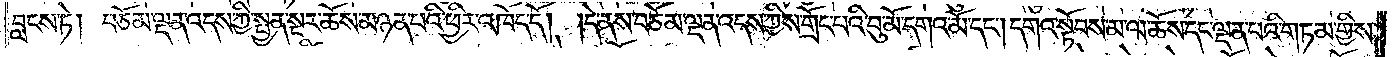བླངས་ཏེ། བཅོམ་ལྡན་འདས་ཀྱི་སྤྱན་སྔར་ཆོས་མཉན་པའི་ཕྱིར་འཁོད་དོ། །དེ་ནས་བཅོམ་ལྡན་འདས་ཀྱིས་གྲོང་པའི་བུ་མོ་དགའ་མོ་དང༌། དགའ་སྟོབས་མ་ལ་ཆོས་དང་ལྡན་པའི་གཏམ་གྱིས་
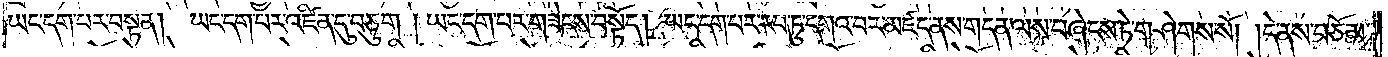ཡང་དག་པར་བསྟན། ཡང་དག་པར་འཛིན་དུ་བཅུག །ཡང་དག་པར་གཟེངས་བསྟོད། ཡང་དག་པར་རབ་ཏུ་དགའ་བར་མཛད་ནས་གདན་ལས་བཞེངས་ཏེ་གཤེགས་སོ། །དེ་ནས་བཅོམ་
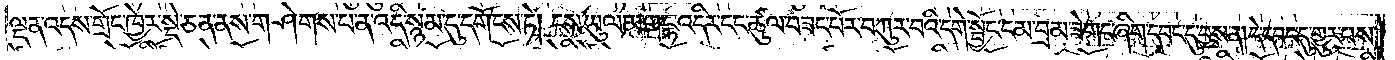ལྡན་འདས་གྲོང་ཁྱེར་སྡེ་ཅན་ནས་གཤེགས་པ་ན་འདི་སྙམ་དུ་དགོངས་ཏེ། ངས་ཡུལ་མ་ག་དྷ་འདིར་ངང་ཚུལ་བཟང་པོར་བཀུར་བའི་དགེ་སྦྱོང་ངམ་བྲམ་ཟེ་གང་ཞིག་དབང་དུ་བྱས་ན། དེ་དབང་དུ་གྱུར་པས་
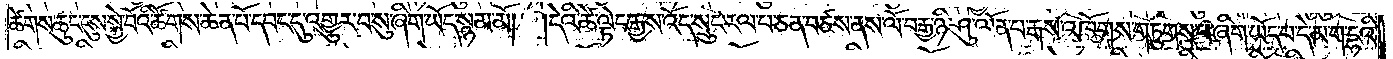ཚེགས་ཆུང་ངུས་སྐྱེ་བོའི་ཚོགས་ཆེན་པོ་དབང་དུ་འགྱུར་བ་སུ་ཞིག་ཡོད་སྙམ་མོ། །དེའི་ཚེ་ལྟེང་རྒྱས་འོད་སྲུང་རལ་པ་ཅན་བཙས་ནས་ལོ་བརྒྱ་ཉི་ཤུ་ལོན་པ་རྒས་འཁོགས་གཏུགས་པ་ཞིག་ཡོད་པ་དེ་མ་ག་དྷའི་
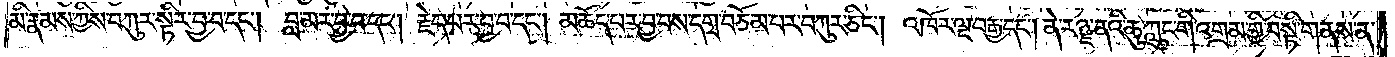མི་རྣམས་ཀྱིས་བཀུར་སྟིར་བྱ་བ་དང༌། བླ་མར་བྱ་བ་དང༌། རྗེད་པར་བྱ་བ་དང༌། མཆོད་པར་བྱ་བས་དགྲ་བཅོམ་པར་བཀུར་ཅིང༌། འཁོར་ལྔ་བརྒྱ་དང༌། ནེ་རཉྫ་ནའི་ཆུ་ཀླུང་གི་འགྲམ་གྱི་བསྟི་གནས་ན་
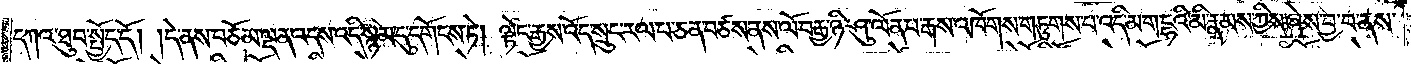དཀའ་ཐུབ་སྤྱོད་དོ། །དེ་ནས་བཅོམ་ལྡན་འདས་འདི་སྙམ་དུ་དགོངས་ཏེ། ལྟེང་རྒྱས་འོད་སྲུང་རལ་པ་ཅན་བཙས་ནས་ལོ་བརྒྱ་ཉི་ཤུ་ལོན་པ་རྒས་འཁོགས་གཏུགས་པ་འདི་མ་ག་དྷའི་མི་རྣམས་ཀྱིས་ཞེས་བྱ་བ་ནས་
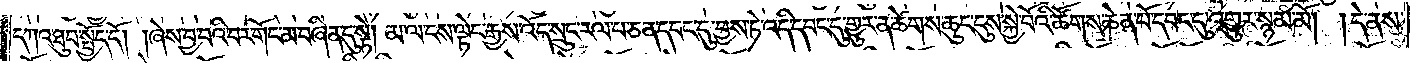དཀའ་ཐུབ་སྤྱོད་དོ། །ཞེས་བྱ་བའི་བར་གོང་མ་བཞིན་དུ་སྟེ། མ་ལངས་ལྟེང་རྒྱས་འོད་སྲུང་རལ་པ་ཅན་དབང་དུ་བྱས་ཏེ་འདི་དབང་དུ་གྱུར་ན་ཚེགས་ཆུང་དུས་སྐྱེ་བོའི་ཚོགས་ཆེན་པོ་དབང་དུ་འགྱུར་སྙམ་མོ། །དེ་ནས་
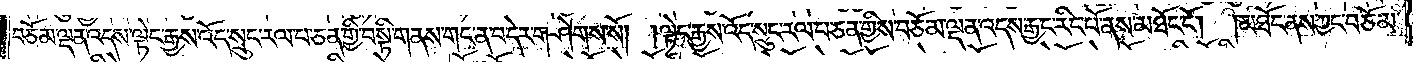བཅོམ་ལྡན་འདས་ལྟེང་རྒྱས་འོད་སྲུང་རལ་པ་ཅན་གྱི་བསྟི་གནས་གང་ན་བདེར་གཤེགས་སོ། །ལྟེང་རྒྱས་འོད་སྲུང་རལ་པ་ཅན་གྱིས་བཅོམ་ལྡན་འདས་རྒྱང་རིང་པོ་ནས་མཐོང་ངོ༌། །མཐོང་ནས་ཀྱང་བཅོམ་
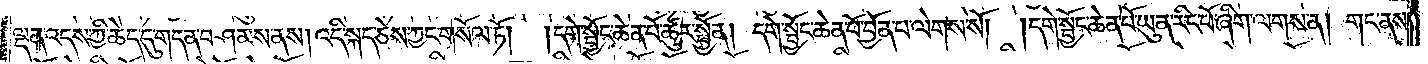ལྡན་འདས་ཀྱི་ཆེད་དུ་གདན་བཤམས་ནས། འདི་སྐད་ཅེས་ཀྱང་གསོལ་ཏོ། །དགེ་སྦྱོང་ཆེན་པོ་ཚུར་སྤྱོན། དགེ་སྦྱོང་ཆེན་པོ་བྱོན་པ་ལེགས་སོ། །དགེ་སྦྱོང་ཆེན་པོ་ཡུན་རིང་པོ་ཞིག་ལགས་ན། གང་ནས་
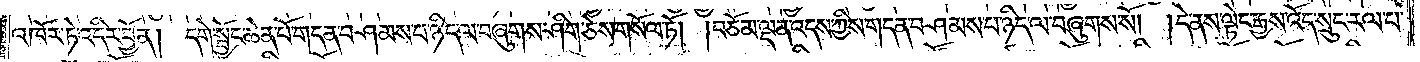འཁོར་ཏེ་འདིར་བྱོན། དགེ་སྦྱོང་ཆེན་པོ་གདན་བཤམས་པ་ཉིད་ལ་བཞུགས་ཤིག་ཅེས་གསོལ་ཏོ། །བཅོམ་ལྡན་འདས་ཀྱིས་གདན་བཤམས་པ་ཉིད་ལ་བཞུགས་སོ། །དེ་ནས་ལྟེང་རྒྱས་འོད་སྲུང་རལ་པ་
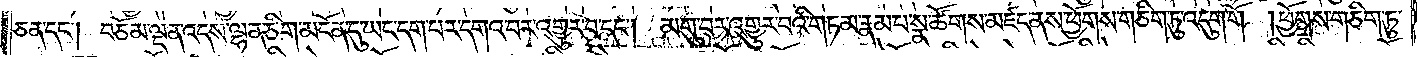ཅན་དང༌། བཅོམ་ལྡན་འདས་ལྷན་ཅིག་མངོན་དུ་ཡང་དག་པར་དགའ་བར་འགྱུར་བ་དང༌། མགུ་བར་འགྱུར་བའི་གཏམ་རྣམ་པ་སྣ་ཚོགས་མཛད་ནས་ཕྱོགས་གཅིག་ཏུ་འདུག་གོ །ཕྱོགས་གཅིག་ཏུ་
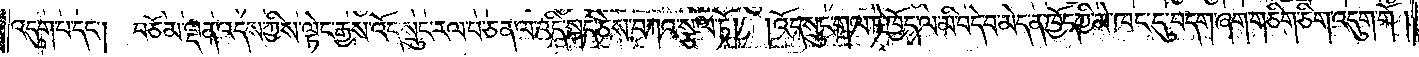འདུག་པ་དང༌། བཅོམ་ལྡན་འདས་ཀྱིས་ལྟེང་རྒྱས་འོད་སྲུང་རལ་པ་ཅན་ལ་འདི་སྐད་ཅེས་བཀའ་སྩལ་ཏོ། །འོད་སྲུང་གལ་ཏེ་ཁྱོད་ལ་མི་བདེ་བ་མེད་ན་ཁྱོད་ཀྱི་མེ་ཁང་དུ་བདག་ཞག་གཅིག་ཅིག་འདུག་གོ །
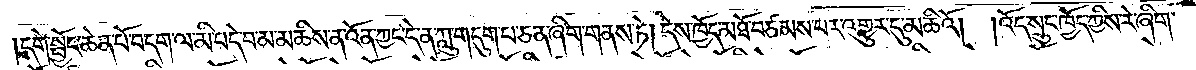དགེ་སྦྱོང་ཆེན་པོ་བདག་ལ་མི་བདེ་བ་མ་མཆིས་ན་འོན་ཀྱང་དེ་ན་ཀླུ་གདུག་པ་ཅན་ཞིག་གནས་ཏེ། དེས་ཁྱོད་མཐོ་བཙམས་པར་འགྱུར་དུ་མཆིའོ། །འོད་སྲུང་ཁྱོད་ཀྱིས་རེ་ཞིག་
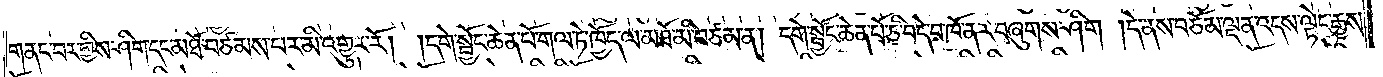གནང་བར་གྱིས་ཤིག་དང་མཐོ་བཙམས་པར་མི་འགྱུར་རོ། །དགེ་སྦྱོང་ཆེན་པོ་གལ་ཏེ་ཁྱོད་ལ་མཐོ་མི་བཙམ་ན། དགེ་སྦྱོང་ཆེན་པོ་ཅི་བདེ་བ་ཁོ་ནར་བཞུགས་ཤིག །དེ་ནས་བཅོམ་ལྡན་འདས་ལྟེང་རྒྱས་
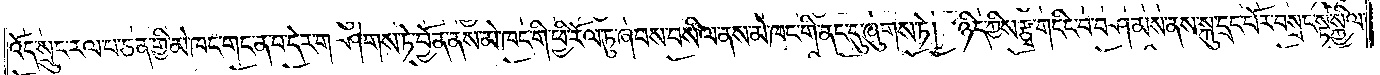འོད་སྲུང་རལ་པ་ཅན་གྱི་མེ་ཁང་གང་ན་བ་དེར་གཤེགས་ཏེ་བྱོན་ནས་མེ་ཁང་གི་ཕྱི་རོལ་ཏུ་ཞབས་བསིལ་ནས་མེ་ཁང་གི་ནང་དུ་ཞུགས་ཏེ། ཉིད་ཀྱིས་རྩྭ་གདིང་བ་བཤམས་ནས་སྐུ་དྲང་པོར་བསྲང་སྟེ་སྐྱིལ་
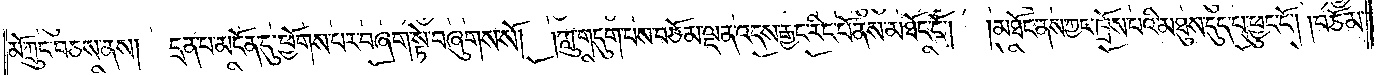མོ་ཀྲུང་བཅས་ནས། དྲན་པ་མངོན་དུ་ཕྱོགས་པར་བཞག་སྟེ་བཞུགས་སོ། །ཀླུ་གདུག་པས་བཅོམ་ལྡན་འདས་རྒྱང་རིང་པོ་ནས་མཐོང་ངོ༌།  །མཐོང་ནས་ཀྱང་ཁྲོས་པའི་མཐུས་དུད་པ་ཕྱུང་ངོ༌། །བཅོམ་
